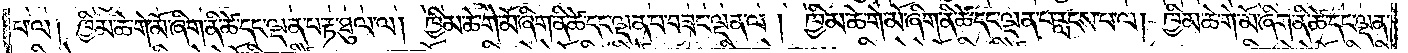པ་ལ། ཁྱིམ་ཆེ་གེ་མོ་ཞིག་ནི་ཚེ་དང་ལྡན་པ་རྟ་ཐུལ་ལ། ཁྱིམ་ཆེ་གེ་མོ་ཞིག་ནི་ཚེ་དང་ལྡན་པ་བཟང་ལྡན་ལ། ཁྱིམ་ཆེ་གེ་མོ་ཞིག་ནི་ཚེ་དང་ལྡན་པ་རླངས་པ་ལ། ཁྱིམ་ཆེ་གེ་མོ་ཞིག་ནི་ཚེ་དང་ལྡན་
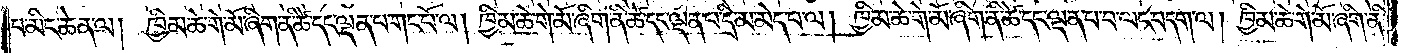པ་མིང་ཆེན་ལ། ཁྱིམ་ཆེ་གེ་མོ་ཞིག་ན་ཚེ་དང་ལྡན་པ་གང་པོ་ལ། ཁྱིམ་ཆེ་གེ་མོ་ཞིག་ནི་ཚེ་དང་ལྡན་པ་དྲི་མ་མེད་པ་ལ། ཁྱིམ་ཆེ་གེ་མོ་ཞིག་ནི་ཚེ་དང་ལྡན་པ་བ་ལང་བདག་ལ། ཁྱིམ་ཆེ་གེ་མོ་ཞིག་ནི་
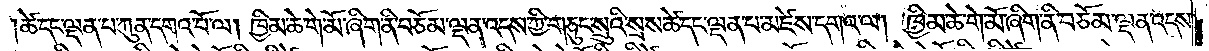ཚེ་དང་ལྡན་པ་ཀུན་དགའ་བོ་ལ། ཁྱིམ་ཆེ་གེ་མོ་ཞིག་ནི་བཅོམ་ལྡན་འདས་ཀྱི་གཅུང་སྲུའི་སྲས་ཚེ་དང་ལྡན་པ་མཛེས་དགའ་ལ། ཁྱིམ་ཆེ་གེ་མོ་ཞིག་ནི་བཅོམ་ལྡན་འདས་
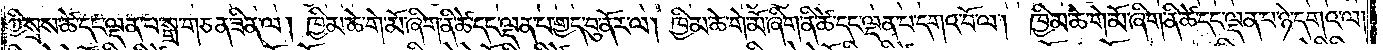ཀྱི་སྲས་ཚེ་དང་ལྡན་པ་སྒྲ་གཅན་ཟིན་ལ། ཁྱིམ་ཆེ་གེ་མོ་ཞིག་ནི་ཚེ་དང་ལྡན་པ་གྱད་བུ་ནོར་ལ། ཁྱིམ་ཆེ་གེ་མོ་ཞིག་ནི་ཚེ་དང་ལྡན་པ་དགའ་བོ་ལ། ཁྱིམ་ཆེ་གེ་མོ་ཞིག་ནི་ཚེ་དང་ལྡན་པ་ཉེ་དགའ་ལ་
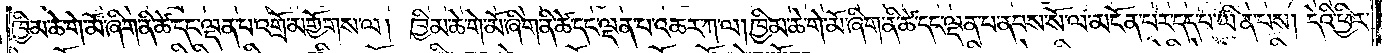ཁྱིམ་ཆེ་གེ་མོ་ཞིག་ནི་ཚེ་དང་ལྡན་པ་འགྲོ་མགྱོགས་ལ། ཁྱིམ་ཆེ་གེ་མོ་ཞིག་ནི་ཚེ་དང་ལྡན་པ་འཆར་ཀ་ལ། ཁྱིམ་ཆེ་གེ་མོ་ཞིག་ནི་ཚེ་དང་ལྡན་པ་ནབས་སོ་ལ་མངོན་པར་དད་པ་ཡིན་པས། དེའི་ཕྱིར་
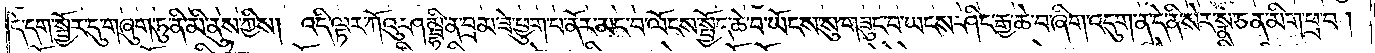དེ་དག་སྦྱོར་དུ་གཞུག་ཏུ་ནི་མི་ནུས་ཀྱིས། འདི་ལྟར་ཀོའུ་ཤམྦྷི་ན་བྲམ་ཟེ་ཕྱུག་པ་ནོར་མང་བ་ལོངས་སྤྱོད་ཆེ་བ་ཡོངས་སུ་གཟུང་བ་ཡངས་ཤིང་རྒྱ་ཆེ་བ་ཞིག་འདུག་ན་དེ་ནི་སེར་སྣ་ཅན་མིག་ཕྲ་བ།
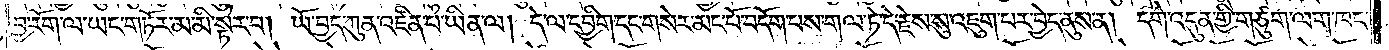བྱ་རོག་ལ་ཡང་གཏོར་མ་མི་སྟེར་བ། ཡོ་བྱད་ཀུན་འཛིན་པ་ཡིན་ལ། དེ་ལ་དབྱིག་དང་གསེར་མང་པོ་བདོག་པས་གལ་ཏེ་དེ་རྗེས་སུ་འཇུག་པར་བྱེད་ནུས་ན། དགེ་འདུན་གྱི་གཙུག་ལག་ཁང་
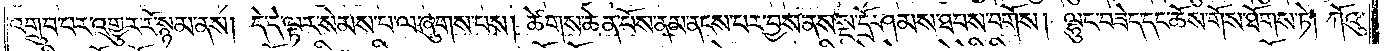འགྲུབ་པར་འགྱུར་རོ་སྙམ་ནས། དེ་དེ་ལྟར་སེམས་པ་ལ་ཞུགས་པས། ཚེགས་ཆེན་པོས་ནམ་ནངས་པར་བྱས་ནས་སྔ་དྲོ་ཤམས་ཐབས་བགོས། ལྷུང་བཟེད་དང་ཆོས་གོས་ཐོགས་ཏེ། ཀོའུ་
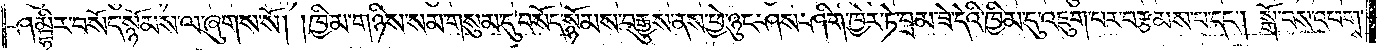ཤམྦྷིར་བསོད་སྙོམས་ལ་ཞུགས་སོ། །ཁྱིམ་གཉིས་སམ་གསུམ་དུ་བསོད་སྙོམས་བརྒྱུས་ནས་ཕྱེ་ཉུང་ཤས་ཤིག་ཁྱེར་ཏེ་བྲམ་ཟེ་དེའི་ཁྱིམ་དུ་འཇུག་པར་བརྩམས་པ་དང༌། སྒོ་བས་འཕགས་
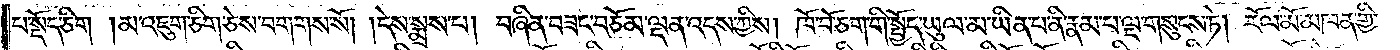པ་སྡོད་ཅིག །མ་འཇུག་ཅིག་ཅེས་བགགས་སོ། །དེས་སྨྲས་པ། བཞིན་བཟང་བཅོམ་ལྡན་འདས་ཀྱིས། ཁོ་བོ་ཅག་གི་སྤྱོད་ཡུལ་མ་ཡིན་པ་ནི་རྣམ་པ་ལྔ་གསུངས་ཏེ། རོལ་མོ་མཁན་གྱི་
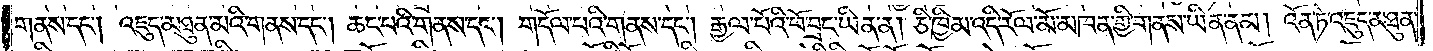གནས་དང༌། འཇུད་མཐུན་མའི་གནས་དང༌། ཆང་པའི་གནས་དང༌། གདོལ་པའི་གནས་དང༌། རྒྱལ་པོའི་ཕོ་བྲང་ཡིན་ན། ཅི་ཁྱིམ་འདི་རོལ་མོ་མཁན་གྱི་གནས་ཡིན་ནམ། འོན་ཏེ་འཇུད་མཐུན་
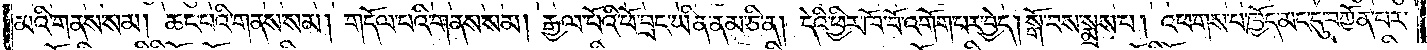མའི་གནས་སམ། ཆང་པའི་གནས་སམ། གདོལ་པའི་གནས་སམ། རྒྱལ་པོའི་ཕོ་བྲང་ཡིན་ནམ་ཅི་ན། དེའི་ཕྱིར་ཁོ་བོ་འགོག་པར་བྱེད། སྒོ་བས་སྨྲས་པ། འཕགས་པ་ཁྱོད་མང་དུ་བཀྱོན་པར་
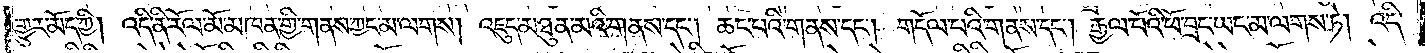གྱུར་མོད་ཀྱི། འདི་ནི་རོལ་མོ་མཁན་གྱི་གནས་ཀྱང་མ་ལགས། འཇུད་མཐུན་མའི་གནས་དང༌། ཆང་པའི་གནས་དང༌། གདོལ་པའི་གནས་དང༌། རྒྱལ་པོའི་ཕོ་བྲང་ཡང་མ་ལགས་ཏེ། འདི་
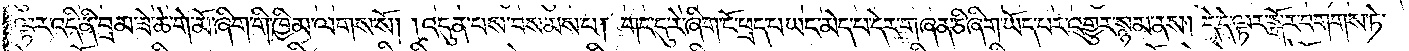ལྟར་འདི་ནི་བྲམ་ཟེ་ཆེ་གེ་མོ་ཞིག་གི་ཁྱིམ་ལགས་སོ། །འདུན་པས་བསམས་པ། གང་དུ་རེ་ཞིག་ངོ་ཕྲད་པ་ཡང་མེད་པ་དེར་གཞན་ཅི་ཞིག་ཡོད་པར་འགྱུར་སྙམ་ནས། དེ་དེ་ལྟར་སྒོར་བགགས་ཏེ་
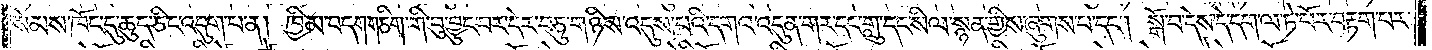སེམས་ཁོང་དུ་ཆུད་ཅིང་འདུག་པ་ན། ཁྱིམ་བདག་གཅིག་གི་བུ་བྱུང་བར་དེར་བཅུ་གཉིས་འདུས་པའི་དགའ་འདུན་གར་དང་གླུ་དང་སིལ་སྙན་གྱིས་ཞུགས་པ་དང༌། སྒོ་བ་དེས་དེ་དག་ལ་ཏེ་པོར་བརྟག་པར་
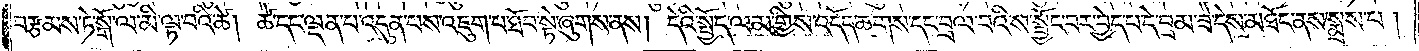བརྩམས་ཏེ་སྒོ་ལ་མི་ལྟ་བའི་ཚེ། ཚེ་དང་ལྡན་པ་འདུན་པས་འཇུག་པ་ཐོབ་སྟེ་ཞུགས་ནས། དེའི་སྤྱོད་ལམ་གྱིས་འདོད་ཆགས་དང་བྲལ་བའི་ས་སྦྱོང་བར་བྱེད་པ་དེ་བྲམ་ཟེ་དེས་མཐོང་ནས་སྨྲས་པ།
